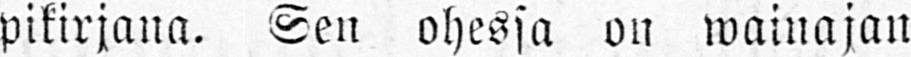pikirjana. Sen ohessa on wainajan
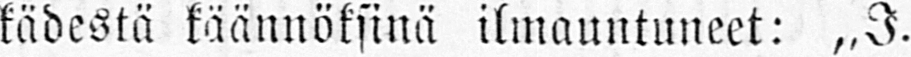kädestä käännöksinä ilmauntuneet: „I.
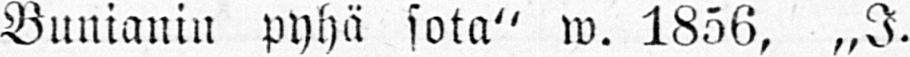Bunianin pyhä sota" w. 1856, „J.
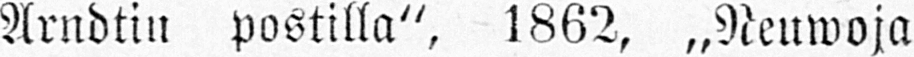Arndtin postilla", 1862, „Neuwoja
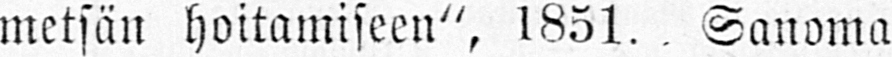metsän hoitamiseen", 1851. Sanoma
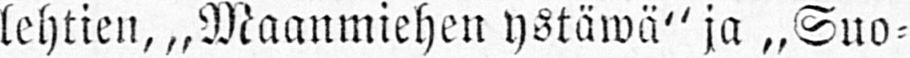lehtien, „Maanmiehen ystäwä" ja „Suo-
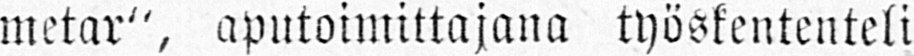metar", aputoimittajana työskententeli
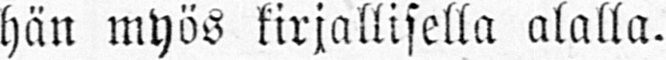hän myös kirjallisella alalla.
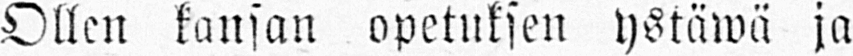Ollen kansan opetuksen ystäwä ja
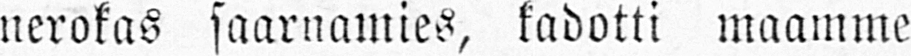nerokas saarnamies, kadotti maamme
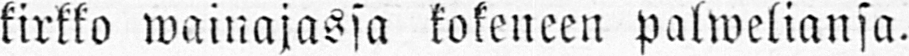kirkko wainajassa kokeneen palweliansa.
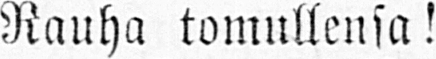Rauha tomullensa!
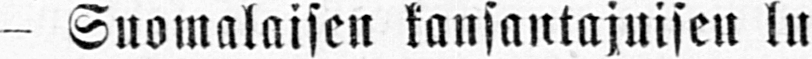- Suomalaisen kansantajuisen lu-
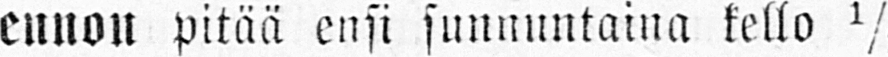ennon pitää ensi sunnuntaina kello ½
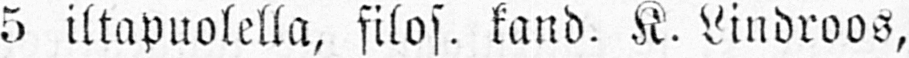5 iltapuolella, filos. kand. K. Lindroos,
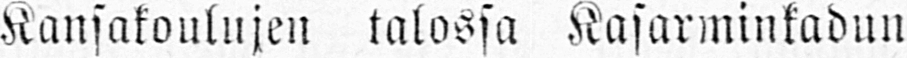Kansakoulujen talossa Kasarminkadun
